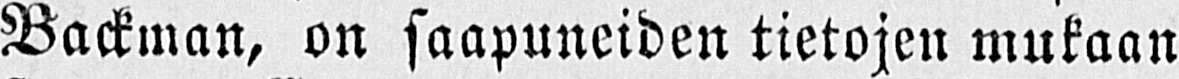Backman, on saapuneiden tietojen mukaan
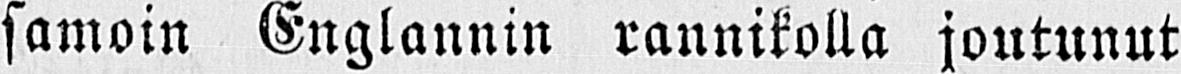samoin Englannin rannikolla joutunut
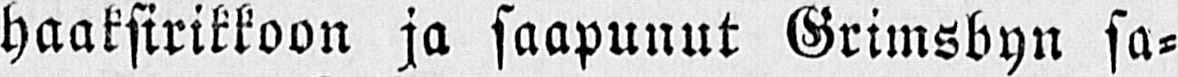haaksirikkoon ja saapunut Grimsbyn sa-
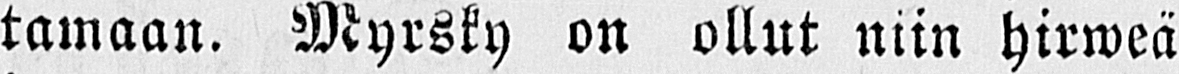tamaan. Myrsky on ollut niin hirweä
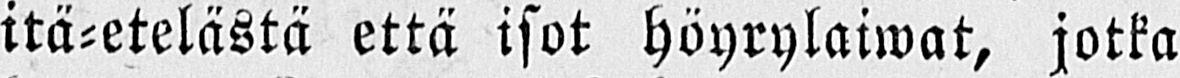itä-etelästä että isot höyrylaiwat, jotka
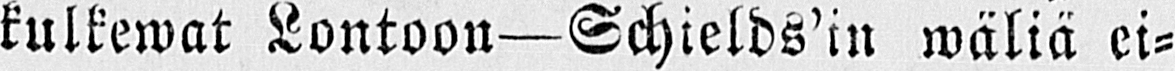kulkewat Lontoon —Schield'in wäliä ei-
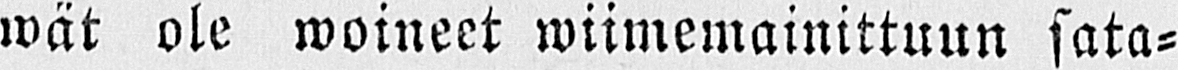wät ole woineet wiimemainittuun sata-
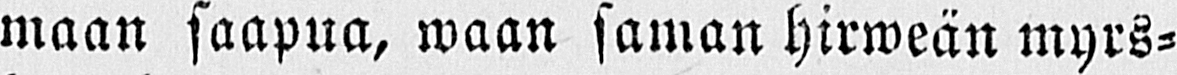maan saapua, waan saman hirweän myrs-
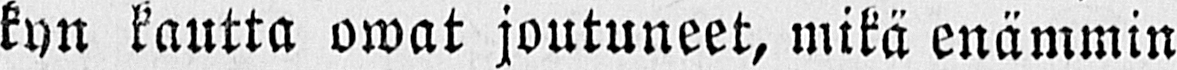kyn kautta owat joutuneet, mikä enämmin
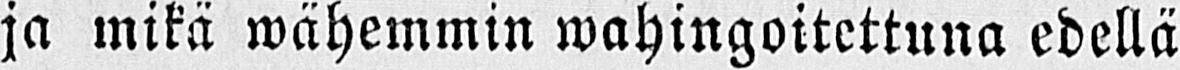ja mikä wähemmin wahingoitettuna edellä
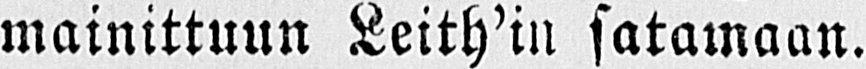mainittuun Leith'in satamaan.
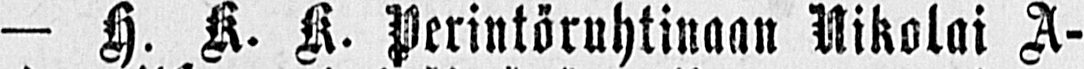— H. K. K. Perintöruhtinaan Nikolai A-
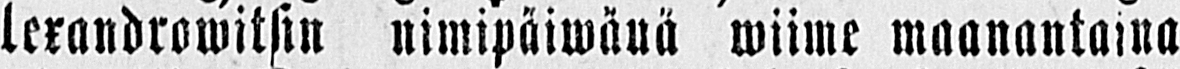lexandrowitsin nimipäiwäuä wiime maanantaina
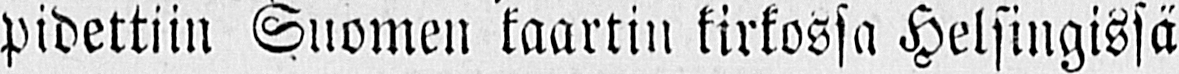pidettiin Suomen kaartin kirkossa Helsingissä
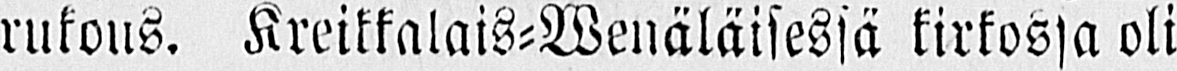rukous. Kreikkalais-Wenäläisessä kirkossa oli
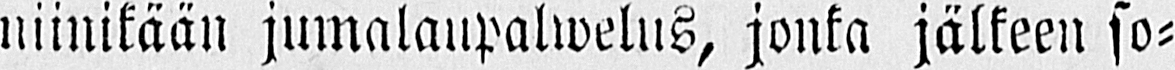niinikään jumalanpalwelus, jonka jälkeen so-
